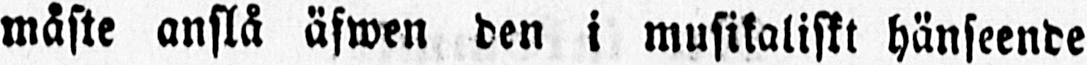måste anslå äfwen den i musikaliskt hänseende
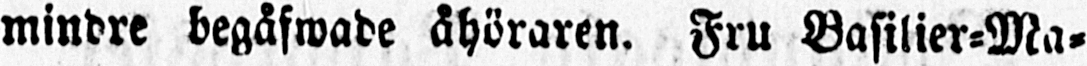mindre begåfwade åhöraren. Fru Basilier-Ma-
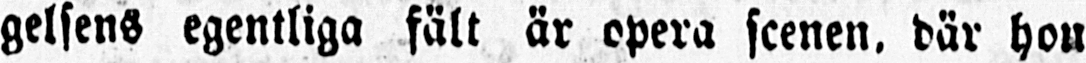gelsens egentliga fält är opera scenen, där hon
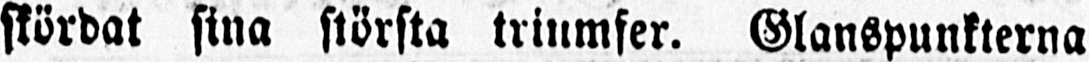skördat sina största triumfer. Glanspunkterna
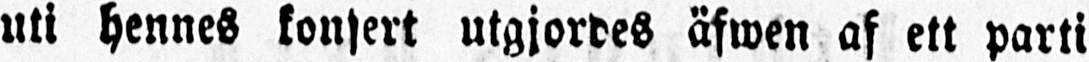uti hennes konsert utgjordes äfwen af ett parti
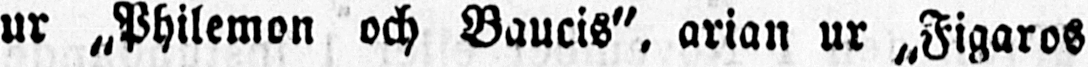ur „Philemon och Baucis", arian ur „Figaros
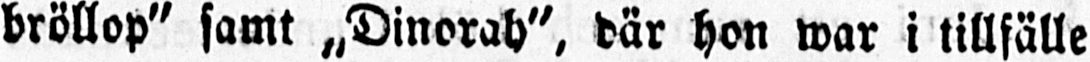bröllop" samt „Dinorah", där hon war i tillfälle
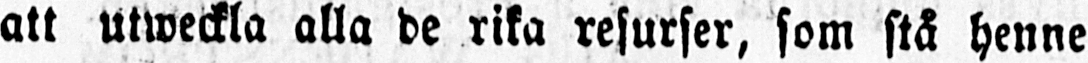att utweckla alla de rika resurser, som stå henne
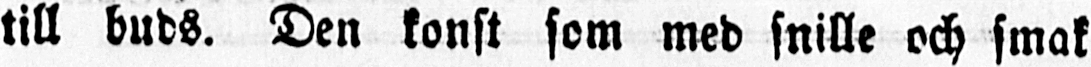till buds. Den konst som med snille och smak
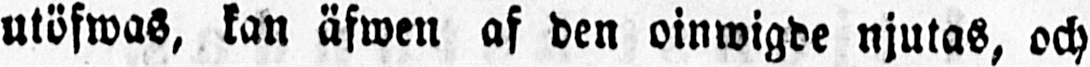utöfwas, kan äfwen af den oinwigde njutas, och
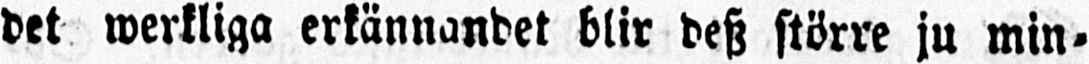det werkliga erkännandet blir desz större ju min-
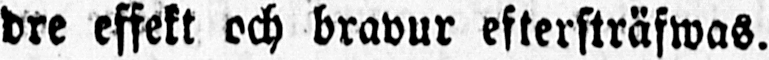dre effekt och bravur eftersträfwas.
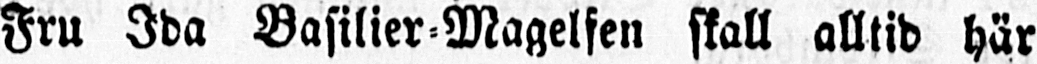Fru Ida Basilier-Magelsen skall alltid här
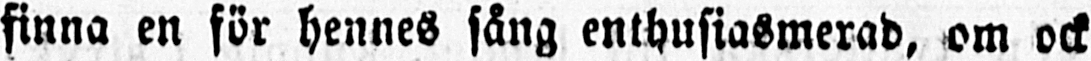finna en för hennes sång enthusiasmerad, om ock
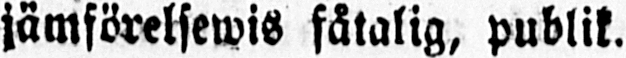jämförelsewis fåtalig, publik.
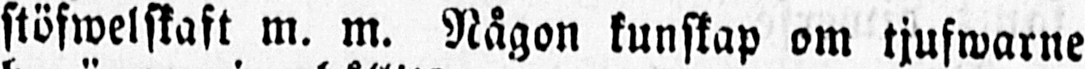stöfwelskaft m. m. Någon kunskap om tjufwarne
